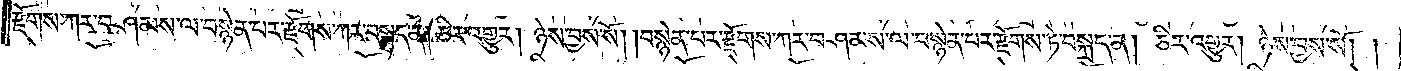རྫོགས་ཀར་བཤམས་ལ་བསྙེན་པར་རྫོགས་ཀར་བསྐྲད་ན། ཅིར་འགྱུར། ཉེས་བྱས་སོ། །བསྙེན་པར་རྫོགས་ཀར་བཤམས་ལ་བསྙེན་པར་རྫོགས་ཏེ་བསྐྲད་ན། ཅིར་འགྱུར། ཉེས་བྱས་སོ། །
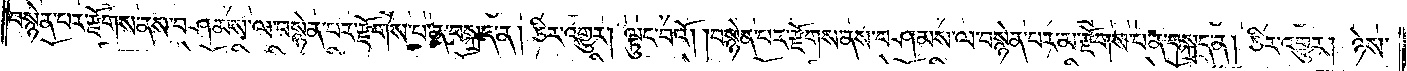བསྙེན་པར་རྫོགས་ནས་བཤམས་ལ་བསྙེན་པར་རྫོགས་པ་ན་བསྐྲད་ན། ཅིར་འགྱུར། ལྟུང་བའོ། །བསྙེན་པར་རྫོགས་ནས་བཤམས་ལ་བསྙེན་པར་མ་རྫོགས་པ་ན་བསྐྲད་ན། ཅིར་འགྱུར། ཉེས་
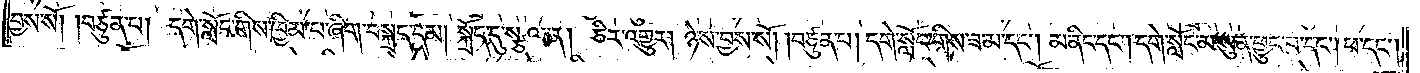བྱས་སོ། །བཙུན་པ། དགེ་སློང་གིས་ཁྱིམ་པ་ཞིག་བསྐྲད་དམ། སྐྲོད་དུ་སྩལ་ན། ཅིར་འགྱུར། ཉེས་བྱས་སོ། །བཙུན་པ། དགེ་སློང་གིས་ཟ་མ་དང༌། མ་ནིང་དང༌། དགེ་སློང་མ་སུན་ཕྱུང་བ་དང༌། ཕ་དང༌།
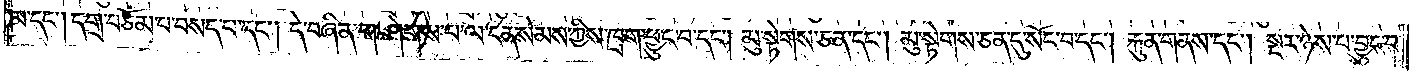མ་དང༌། དགྲ་བཅོམ་པ་བསད་པ་དང༌། དེ་བཞིན་གཤེགས་པ་ལ་ངན་སེམས་ཀྱིས་ཁྲག་ཕྱུང་བ་དང༌། མུ་སྟེགས་ཅན་དང༌། མུ་སྟེགས་ཅན་དུ་སོང་བ་དང༌། རྐུན་གནས་དང༌། སྔར་ཉེས་པ་བྱུང་བར་
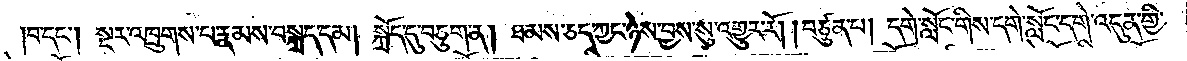།བ་དང༌། སྔར་འཁྲུགས་པ་རྣམས་བསྐྲད་དམ། སྐྲོད་དུ་བཅུག་ན། ཐམས་ཅད་ཀྱང་ཉེས་བྱས་སུ་འགྱུར་རོ། །བཙུན་པ། དགེ་སློང་གིས་དགེ་སློང་དགེ་འདུན་གྱི་
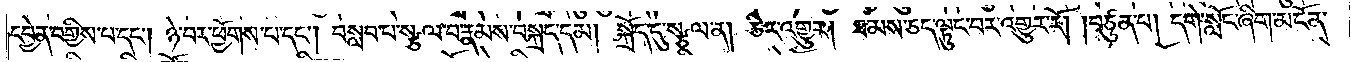དབྱེན་བགྱིས་པ་དང༌། ཉེ་བར་ཕྱོགས་པ་དང༌། བསླབ་པ་སྩལ་བ་རྣམས་བསྐྲད་དམ། སྐྲོད་དུ་སྩལ་ན། ཅིར་འགྱུར། ཐམས་ཅད་ལྟུང་བར་འགྱུར་རོ། །བཙུན་པ། དགེ་སློང་ཞིག་མངོན་
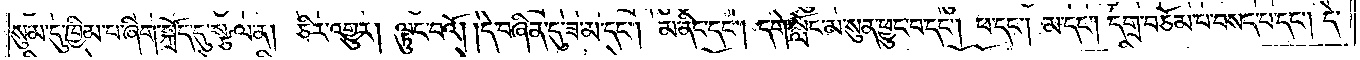སུམ་དུ་ཁྱིམ་པ་ཞིག་སྐྲོད་དུ་སྩལ་ན། ཅིར་འགྱུར། ལྟུང་བའོ། །དེ་བཞིན་དུ་ཟ་མ་དང༌། མ་ནིང་དང༌། དགེ་སློང་མ་སུན་ཕྱུང་བ་དང༌། ཕ་དང༌། མ་དང༌། དགྲ་བཅོམ་པ་བསད་པ་དང༌། དེ་
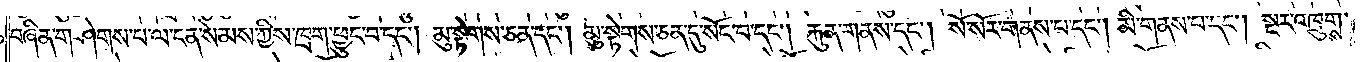བཞིན་གཤེགས་པ་ལ་ངན་སེམས་ཀྱིས་ཁྲག་ཕྱུང་བ་དང༌། མུ་སྟེགས་ཅན་དང༌། མུ་སྟེགས་ཅན་དུ་སོང་བ་དང༌། རྐུན་གནས་དང༌། སོ་སོར་གནས་པ་དང༌། མི་གནས་པ་དང༌། སྔར་འཁྲུགས་
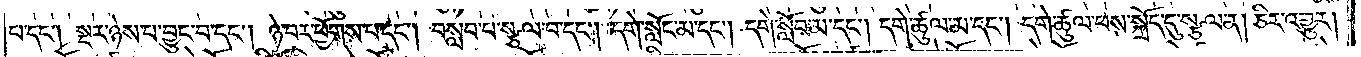པ་དང༌། སྔར་ཉེས་པ་བྱུང་བ་དང༌། ཉེ་བར་ཕྱོགས་པ་དང༌། བསླབ་པ་སྩལ་བ་དང༌། དགེ་སློང་མ་དང༌། དགེ་སློབ་མ་དང༌། དགེ་ཚུལ་མ་དང༌། དགེ་ཚུལ་ཕས་སྐྲོད་དུ་སྩལ་ན། ཅིར་འགྱུར།
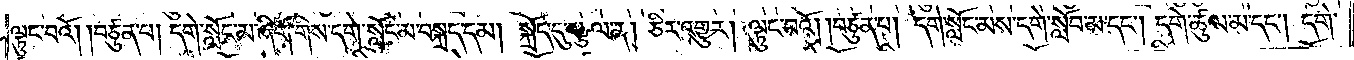ལྟུང་བའོ། །བཙུན་པ། དགེ་སློང་མ་ཞིག་གིས་དགེ་སློང་མ་བསྐྲད་དམ། སྐྲོད་དུ་སྩལ་ན། ཅིར་འགྱུར། ལྟུང་བའོ། །བཙུན་པ། དགེ་སློང་མས་དགེ་སློབ་མ་དང༌། དགེ་ཚུལ་མ་དང༌། དགེ་
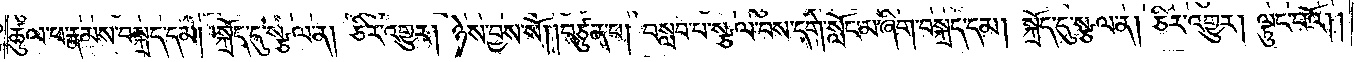ཚུལ་ཕ་རྣམས་བསྐྲད་དམ། སྐྲོད་དུ་སྩལ་ན། ཅིར་འགྱུར། ཉེས་བྱས་སོ། །བཙུན་པ། བསླབ་པ་སྩལ་བས་དགེ་སློང་མ་ཞིག་བསྐྲད་དམ། སྐྲོད་དུ་སྩལ་ན། ཅིར་འགྱུར། ལྟུང་བའོ། །
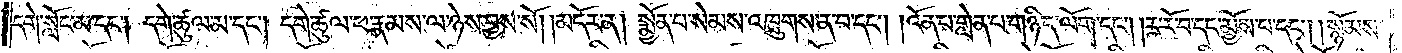དགེ་སློང་མ་དང༌། དགེ་ཚུལ་མ་དང༌། དགེ་ཚུལ་ཕ་རྣམས་ལ་ཉེས་བྱས་སོ།    །མདོར་ན། སྨྱོན་པ་སེམས་འཁྲུགས་ན་བ་དང༌། །འོན་པ་གླེན་པ་གཉིད་ལོག་དང༌། །ར་རོ་བ་དང་མྱོས་པ་དང༌། །སྙོམས་
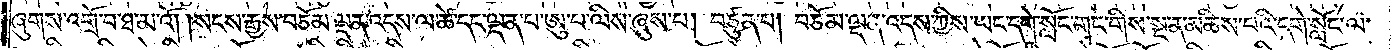ཞུགས་འགྲོ་བ་ཐ་མ་འོ། །སངས་རྒྱས་བཅོམ་ལྡན་འདས་ལ་ཚེ་དང་ལྡན་པ་ཨུ་པ་ལིས་ཞུས་པ། བཙུན་པ། བཅོམ་ལྡན་འདས་ཀྱིས་ཡང་དགེ་སློང་གང་གིས་སྔ་ན་མཆིས་པའི་དགེ་སློང་ལ་
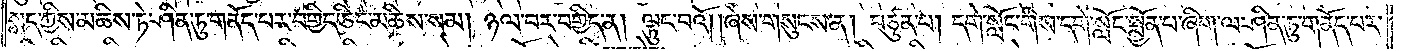སླད་ཀྱིས་མཆིས་ཏེ་ཤིན་ཏུ་གནོད་པར་བགྱིད་ཅིང་མཆིས་སམ། ཉལ་བར་བགྱིད་ན། ལྟུང་བའོ། །ཞེས་གསུངས་ན། བཙུན་པ། དགེ་སློང་གིས་དགེ་སློང་སྨྱོན་པ་ཞིག་ལ་ཤིན་ཏུ་གནོད་པར་
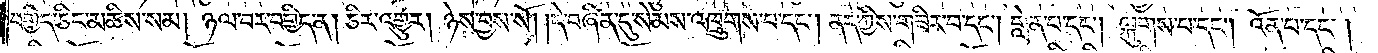བགྱིད་ཅིང་མཆིས་སམ། ཉལ་བར་བགྱིད་ན། ཅིར་འགྱུར། ཉེས་བྱས་སོ། །དེ་བཞིན་དུ་སེམས་འཁྲུགས་པ་དང༌། ནད་ཀྱིས་གཟིར་བ་དང༌། གླེན་པ་དང༌། ལྐུགས་པ་དང༌། འོན་པ་དང༌།
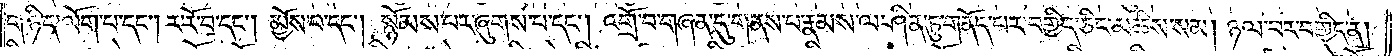གཉིད་ལོག་པ་དང༌། ར་རོ་བ་དང༌། མྱོས་པ་དང༌། སྙོམས་པར་ཞུགས་པ་དང༌། འགྲོ་བ་གཞན་དུ་གནས་པ་རྣམས་ལ་ཤིན་ཏུ་གནོད་པར་བགྱིད་ཅིང་མཆིས་སམ། ཉལ་བར་བགྱིད་ན།
